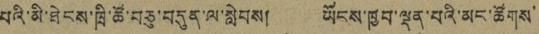པའི་མི་ཐེངས་ཁྲི་ཚོ་བཅུ་བདུན་ལ་སླེབས། ཡོངས་ཁྱབ་ལྡན་པའི་མང་ཚོགས་
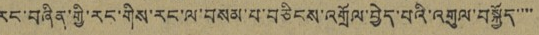རང་བཞིན་གྱི་རང་གིས་རང་ལ་བསམ་པ་བཅིངས་འགྲོལ་བྱེད་པའི་འགུལ་བསྐྱོད་་་་
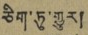ཅིག་ཏུ་གྱུར།
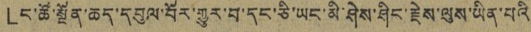「ང་ཚོ་སྔོན་ཆད་དབུལ་བོར་གྱུར་བ་དང་ཅི་ཡང་མི་ཤེས་ཤིང་རྗེས་ལུས་ཡིན་པའི
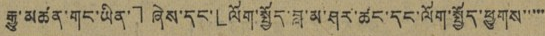རྒྱུ་མཚན་གང་ཡིན་」ཞེས་དང་「ལོག་སྤྱོད་བླ་མ་ཤར་ཚང་དང་ལོག་སྤྱོད་ཕྱུགས་་་་་
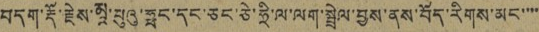བདག་རྡོ་རྗེས་མཱ་པུའུ་ཧྥང་དང་ཅང་ཅེ་ཧྲི་ལ་ལག་སྦྲེལ་བྱས་ནས་བོད་རིགས་མང་་་་
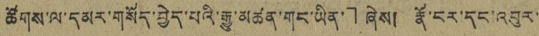ཚོགས་ལ་དམར་གསོད་བྱེད་པའི་རྒྱུ་མཚན་གང་ཡིན་」ཞེས། རྣོ་ངར་དང་འབུར་་
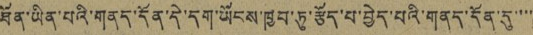ཐོན་ཡིན་པའི་གནད་དོན་དེ་དག་ཡོངས་ཁྱབ་ཏུ་རྩོད་པ་བྱེད་པའི་གནད་དོན་དུ་་་་་
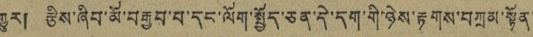གྱུར། རྩིས་ཞིབ་མོ་བརྒྱབ་པ་དང་ལོག་སྤྱོད་ཅན་དེ་དག་གི་ཉེས་རྟགས་བཀྲམ་སྟོན་
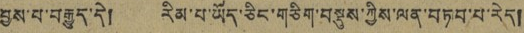བྱས་པ་བརྒྱུད་དེ། རིམ་པ་ཡོད་ཅིང་གཅིག་བསྡུས་ཀྱིས་ལན་བཏབ་པ་རེད།
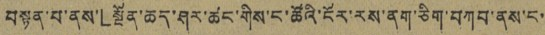བསྟན་པ་ནས་「སྔོན་ཆད་ཤར་ཚང་གིས་ང་ཚོའི་ངོར་རས་ནག་ཅིག་བཀབ་ནས་ང་
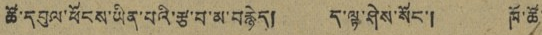ཚོ་དབུལ་ཕོངས་ཡིན་པའི་རྩ་བ་མ་བརྙེད། ད་ལྟ་ཤེས་སོང་། ཁོ་ཚོ་
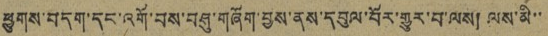ཕྱུགས་བདག་དང་འགོ་བས་བཤུ་གཞོག་བྱས་ནས་དབུལ་པོར་གྱུར་བ་ལས། ལས་མི་་
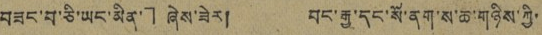བཟང་བ་ཅི་ཡང་མིན་」ཞེས་ཟེར། བང་རྒྱ་དང་སོ་ནག་ས་ཆ་གཉིས་ཀྱི་
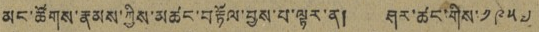མང་ཚོགས་རྣམས་ཀྱིས་མཚང་བརྟོལ་བྱས་པ་ལྟར་ན། ཤར་ཚང་གིས་ ༡༩༥༧
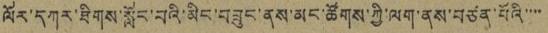ལོར་དཀར་ཐིགས་སློང་བའི་མིང་བཟུང་ནས་མང་ཚོགས་ཀྱི་ལག་ནས་བཙན་པོའི་་་་
